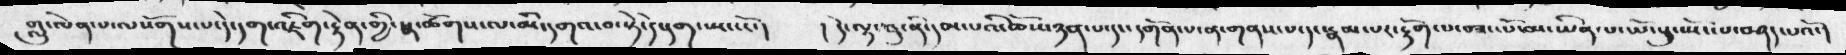གླུ་ལེན་པ་ལསོགས་པ་དེ་དག་འཇིག་རྟེན་གྱི་སྣ་ཚོགས་ལ་མི་དགའ་བ་སྟེ་དེ་དག་སྤང་ངོ་།    ། དེ་ལྟ་བུ་ནི་དམ་པའི་ཆོས་ཉན་པ་དང་དགོན་པ་ན་གནས་པ་དང་རྣམ་པར་རྟོག་པ་བཟང་པོ་མ་ཡིན་པ་ཡོངས་སུ་སྤོང་པ་བཤད་པའོ་།
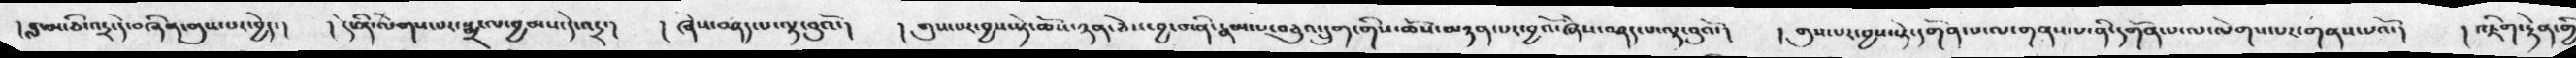། བླ་མ་ཅི་འདྲ་དེ་བཞིན་གུས་པར་བྱེད་།   ། དེ་ནི་ལེགས་པར་སྨྲ་ལ་བྱམས་དེ་འདྲ་།   ། ཞེས་བཤད་པ་ལྟ་བུའོ་།  ། གུས་པར་བྱས་སྟེ་ཆོས་ཉན་ཅེས་བྱ་བ་ནི་རྣམ་པ་བཅུའ་དྲུག་གིས་ཆོས་མཉན་པར་བྱའོ་ཞེས་བཤད་པ་ལྟ་བུའོ་།   ། གུས་པར་བྱས་སྟེ་དགོན་པ་ལ་གནས་པ་ནི་དགོན་པ་ལ་ལེགས་པར་གནས་པའོ་།  ། འཇིག་རྟེན་གྱི
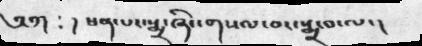༄༅།    ༴   ། ཕན་པར་སྨྲ་ཞིང་གསལ་བར་སྨྲ་བ་ལ་།
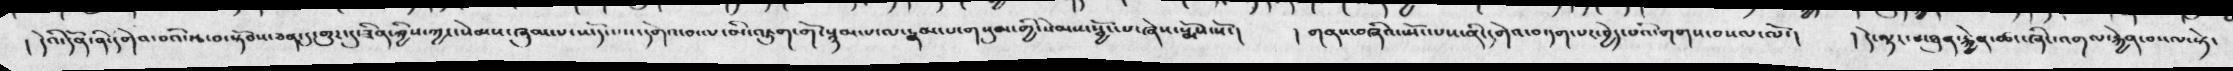། དེའི་དོན་ནི་དགེའ་བའི་རྩ་བ་སྟོབས་ཅན་དུ་གྱུར་དུ་ཟིན་ཀྱིས་ཀྱང་སེམས་ཞུམ་པ་ཡོད་པས་དགེའ་བ་ལ་མི་འཇུག་གོ་སྙམ་པ་ལ་རྣམ་པ་གསུམ་གྱི་སེམས་སྦྱོང་པ་ཞེས་སྨོས་སོ་།  །  གནས་བཞིའ་སྤོང་པས་ནི་དགེའ་བ་དག་པར་བྱེད་པའི་གགས་བསལ་ལོ་།   ། དེ་ལྟར་པ་ཐུན་རྐྱེན་ཚང་ཞིང་འགལ་རྐྱེན་བསལ་ཏེ་
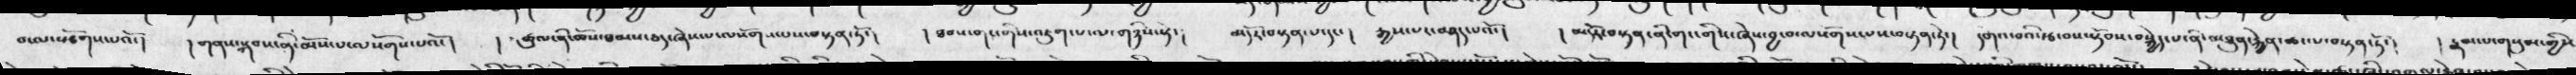བ་ལ་སྩོགས་པའོ་།  ། གནས་སྐབས་ནི་མོས་པ་ལསོགས་པའོ་།  ། ཚུན་ནི་ཆོས་ཐམས་ཅད་ཞེས་པ་ལསོགས་པ་བསྟན་ཏོ་།  ། ཐབས་གང་གིས་འཇུག་པ་ལ་གཉིས་སྟེ་།  མདོན་བསྟན་པ་དང་།  རྒྱས་པར་བཤད་པའོ་།  ། མདོན་བསྟན་ནི་གང་གིསཞེས་བྱ་བ་ལསོགས་པས་བསྟན་ཏེ་།  དགའ་བའི་རྩ་བས་སྟོབས་བསྐྱེད་པ་ནི་མཐུན་རྐྱེན་ཆད་པ་བསྟན་ཏོ་།  ། རྣམ་པ་གསུམ་གྱིས་
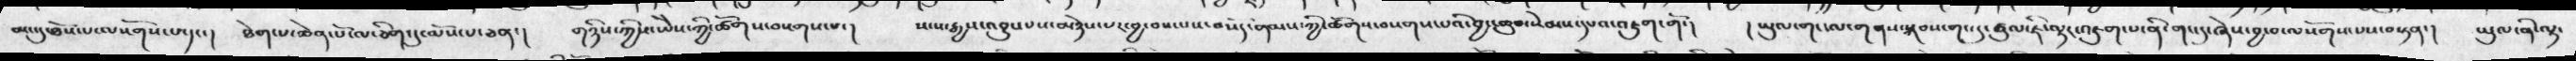མང་དུ་ཐོས་པ་ལསོགས་པ་དང་།  ཐེག་པ་ཆེན་པོ་ལ་ཅིག་དུ་མོས་པ་ཅན་།  གཉིས་ཀྱིས་ཡེེས་ཀྱི་ཚོགས་བསགས་པ་།  སངས་རྒྱས་འབྱུང་པས་མཉེས་པར་བྱ་བས་པས་བསོད་ནམས་ཀྱི་ཚོགས་བསགས་པའི་བྱང་ཆུབ་སེམས་དཔའ་འཇུག་གོ་།  ། ཡུལ་གང་ལ་གནས་སྐབས་གང་དུ་ཚུལ་ཇི་ལྟར་འཇུག་པ་ནི་གང་དུ་ཞེས་བྱ་བ་ལསོགས་པས་བསྟན་།  ཡུལ་ནི་ལྟ་
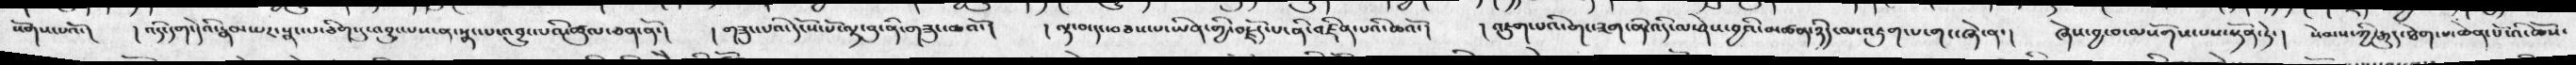སོགས་པའོ་།  ། འདི་དག་དེའི་རྣམ་པར་སྣང་པ་ཅིག་དུ་འབྱུང་པས་ན་སྣང་པ་འབྱུང་པའི་ཚུལ་ཅན་ནོ་།  ། གཟུང་པའི་དངོས་པོ་ལྟ་བུ་ནི་གཟུང་བའོ་།  །  ལྟ་བ་དང་བཅས་པ་ཡིན་གྱི་བརྗོད་པ་ནི་འཛིན་པའི་ཆའོ་།   །  འཇུག་པའི་གང་ཟག་ནི་འདི་ལ་ཤེས་བྱའི་མཚན་ཉིད་ལ་འཇུག་པ་གང་ཞེ་ན་།   ཞེས་བྱ་བ་ལསོགས་པས་སྟོན་ཏེ་།  སེམས་ཀྱི་རྒྱུད་ཐེག་པ་ཆེན་པོ་འི་ཆོས་
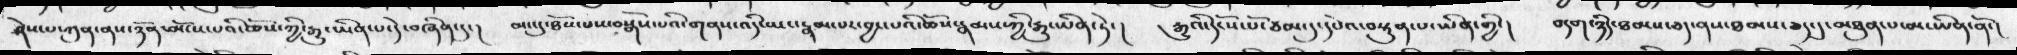ཤེས་པ་ཀུན་ནས་ཉོན་མོངས་པའི་ཆོས་ཀྱི་རྒྱུ་ཡིན་པ་དེ་བཞིན་དུ་།   མང་དུ་ཐོས་པས་བསྒོམ་པའི་གནས་འདི་ཡང་རྣམ་པར་བྱང་པའི་ཆོས་རྣམས་ཀྱི་རྒྱུ་ཡིན་ཏེ་།   རྒྱུའི་དངོས་པོ་ཙམ་དུ་དཔེའ་བསྟུན་པ་ཡིན་གྱི་།  བདག་ཉིད་ཐམས་ཅད་ནས་ཐམས་ཅད་དུ་མཐུན་པ་མ་ཡིན་ནོ་།
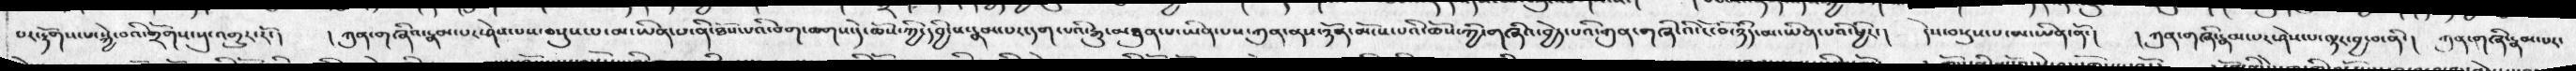པར་རྟོགས་པ་སྐྱེ་བའི་གྲོགས་སུ་འགྱུར་རོ་།   ། ཀུན་གཞིའ་རྣམ་པར་ཤེས་པས་བསྡུས་པ་མ་ཡིན་པ་ནི་ཐོས་པའི་བག་ཆགས་དེ་ཆོས་ཀྱི་དབྱིངས་རྣམ་པར་དག་པའི་རྒྱུ་མཐུན་ཡིན་པས་ཀུན་ནས་ཉོན་མོངས་པའི་ཆོས་ཀྱི་གཞིའ་བྱེད་པའི་ཀུན་གཞི་འི་ངོ་བོ་ཉིད་མ་ཡིན་པའི་ཕྱིར་།   དེས་བསུས་པ་མ་ཡིན་ནོ་།   ། ཀུན་གཞི་རྣམ་པར་ཤེས་པ་ལྟར་བྱ་བ་ནི་།   ཀུན་གཞི་རྣམ་པར་
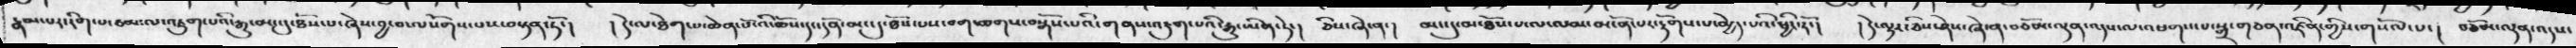རྣམས་པར་རིག་པ་ཙམ་ལ་འཇུག་པའི་རྒྱུ་མང་དུ་ཐོས་པ་ཞེས་བྱ་བ་ལསོགས་པས་བསྟན་ཏོ་།  ། དེ་ལ་ཐེག་པ་ཆེན་པོ་འི་ཆོས་དང་དོན་མང་དུ་ཐོས་པས་བག་ཆགས་བསྒོས་པའི་གནས་འཇུག་པའི་རྒྱུ་ཡིན་ཏེ་།  ཅིས་ཞེ་ན་།  མང་དུ་མ་ཐོས་པ་ལ་ལམ་མངོན་པར་རྟོགས་པ་མྱེད་པའི་ཕྱིར་རོ་།  ། དེ་ལྟར་ཅིས་ཤེས་ཞེ་ན་བཅོམ་ལྡན་འདས་ལ་འཕགས་པ་སྒྲ་གཅན་འཛིན་གྱིས་གསོལ་པ་།  བཅོམ་ལྡན་འདས་
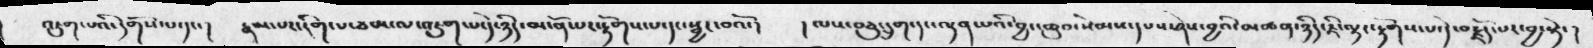འཇུག་པའི་དགོས་པ་དང་།    རྣམ་པར་རིག་པ་ཙམ་ལ་འཇུག་པ་དེ་ཉིད་མངོན་པར་རྟོགས་པ་དང་སྦྱར་བའོ་།    ། ལས་བཅུ་དྲུག་དང་ལྡན་པའི་བྱང་ཆུབ་སེམས་དཔས་ཤེས་བྱའི་མཚན་ཉིད་ཇི་ལྟར་རྟོགས་པ་དེ་བརྗོད་པར་བྱ་སྟེ་།
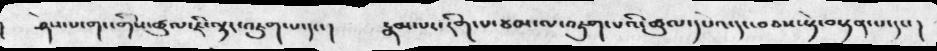།    ཤེས་པ་གང་གིས་ཚུལ་ཇི་ལྟར་འཇུག་པ་དང་།   རྣམ་པར་རིག་པ་ཙམ་ལ་འཇུག་པའི་ཚུལ་དཔེའ་དང་བཅས་སྟེ་བསྟན་པ་དང་།
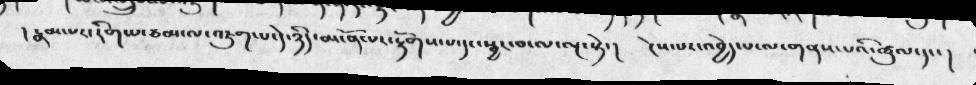།   རྣམ་པར་རིག་པ་ཙམ་ལ་འཇུག་པ་དེ་ཉིད་མངོན་པར་རྟོགས་པ་དང་སྦྱར་བ་ལ་ལྔ་སྟེ་།   ངེས་པར་འབྱེད་པ་ལ་གནས་པའི་ཚུལ་དང་།
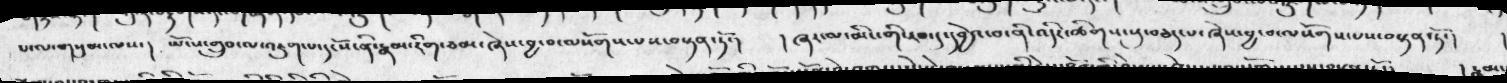པ་ལ་གསུམ་ལས་།   ཡོངས་གྲུབ་ལ་འཇུག་པ་དངོས་ནི་རྣམ་རིག་ཙམ་ཞེས་བྱ་བ་ལསོགས་པས་བསྟན་ཏོ་།
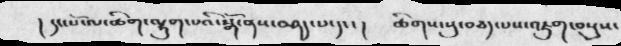།   དང་པོ་ལ་ཚིག་ལྷུག་པའི་སྒོ་ནས་བཤད་པ་དང་།   ཚིགས་སུ་བཅད་པས་འཇུག་བསྡུས་
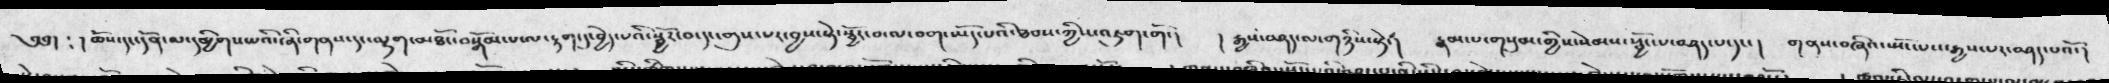༅༅ ༴ ། ཆོས་དང་དོན་ལ་དམྱིགས་པའི་ཞི་གནས་དང་ལྷག་མཐོང་བསྒོམ་པ་ལ་རྟག་དུ་བྱེད་པའི་སྦྱོར་བ་དང་གུས་པར་བྱས་སྟེ་སྦྱོར་བ་ལ་བག་ཡོད་པའི་ཐབས་ཀྱིས་འཇུག་གོ་།   ། རྒྱས་བཤད་ལ་གཉིས་སྟེ་།   རྣམ་པ་གསུམ་གྱིས་སེམས་སྦྱོང་པ་བཤད་པ་དང་།   གནས་བཞིའ་སྤོང་པས་རྒྱས་པར་བཤད་པའོ་།
